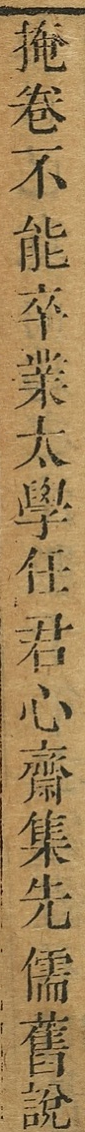掩卷不能卒業太學任君心齋集先儒舊說
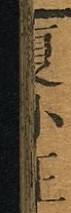夏小正
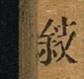鈘
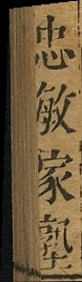一忠敏家塾
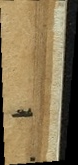一
